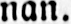nan.
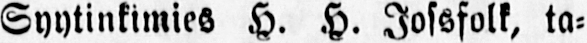Syytinkimies H. H. Jossfolk, ta-
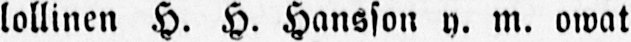lollinen H. H. Hansson y. m. owat
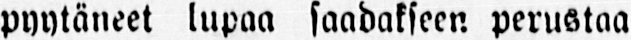pyytäneet lupaa saadakseen perustaa
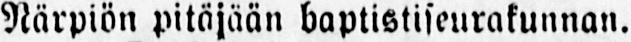Närpiön pitäjään baptistiseurakunnan.
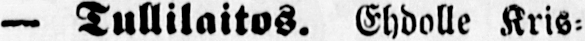— Tullilaitos. Ehdolle Kris-
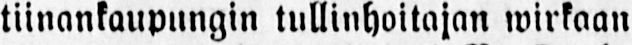tiinankaupungin tullinhoitajan wirkaan
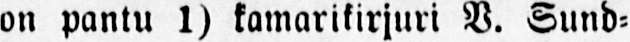on pantu 1) kamarikirjuri V. Sund-
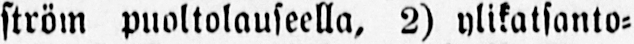ström puoltolauseella, 2) ylikatsanto-
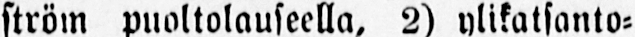mies Holsingin tullikamarissa R. Stau-
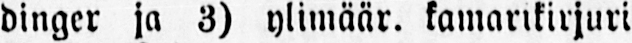dinger ja 3) ylimäär. kamarikirjuri
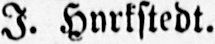I. Hyrkstedt.
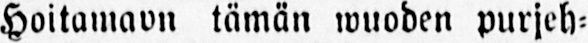Hoitamaon tämän wuoden purjeh-
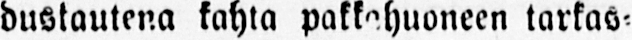duskautena kahta pakkahuoneen tarkas-
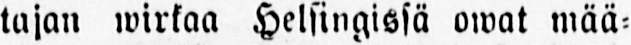tajan wirkaa Helsingissä owat mää-
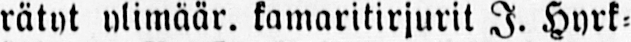rätyt ylimäär. kamaritirjurit I. Hyrk-
